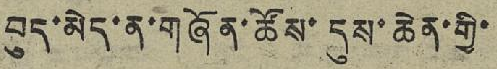བུད་མེད་ན་གཞོན་ཚོས་དུས་ཆེན་གྱི་
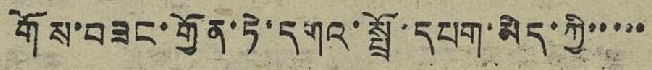གོས་བཟང་གྱོན་ཏེ་དགའ་སྤྲོ་དཔག་མེད་ཀྱི་་་་་་
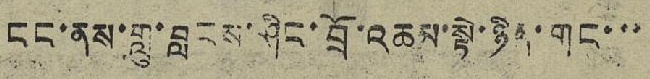ངང་ནས་གླུ་བླངས་ཤིང་བྲོ་འཆམ་སྟེ་ཉིན་གང་་་
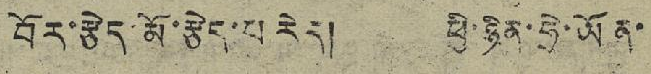བོར་རྩེད་མོ་རྩེད་པ་རེད། ཕྱི་ཉིན་ཧྲེ་ཡོན་
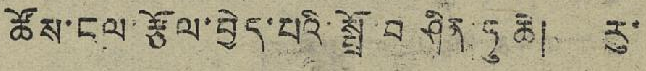ཚོས་ངལ་རྩོལ་བྱེད་པའི་སྤྲོ བ ཤིན་ཏུ་ཆེ། རུ་
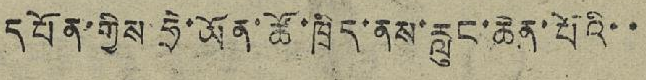དཔོན་གྱིས ཧྲེ་ཡོན་ཚོ་ཁྲིད་ནས་རླུང་ཆེན་པོའི་་
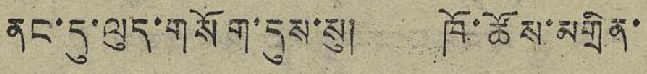ནང་དུ་ལུད་གསོག་དུས་སུ། ཁོ་ཚོས་མགྲིན་
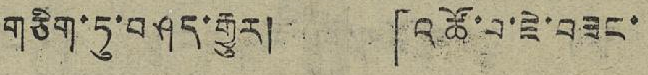གཅིག་ཏུ་བཤད་རྒྱུར། 「འཚོ་བ་ཇེ་བཟང་
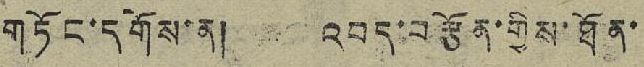གཏོང་དགོས་ན། འབད་བརྩོན་གྱིས་ཐོན་
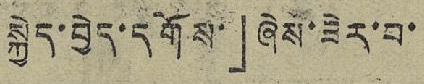སྐྱེད་བྱེད་དགོས་」ཞེས་ཟེར་བ་
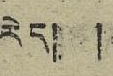རེད། །
